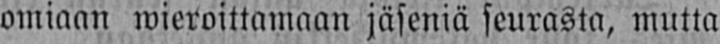omiaan wieroittamaan jäseniä seurasta, mutta
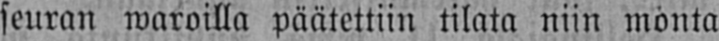seuran waroilla päätettiin tilata niin monta
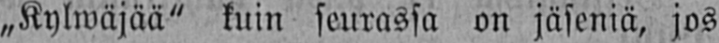„Kylwäjää" kuin seurassa on jäseniä, jos
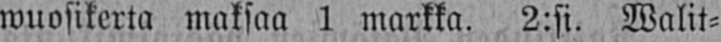wuosikerta maksaa 1 markka. 2:si. Walit-
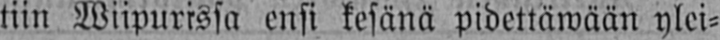tiin Wiipurissa ensi kesänä pidettäwään ylei-
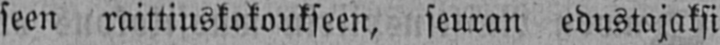seen raittiuskokoukseen, seuran edustajaksi
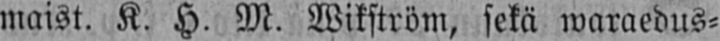maist. K. H. M. Wikström, sekä waraedus-
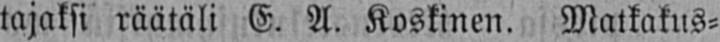tajaksi räätäli E. A. Koskinen. Matkakus-
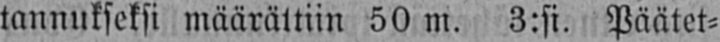tannukseksi määrättiin 50 m. 3:si. Päätet-
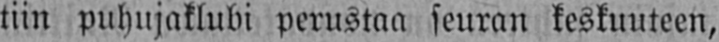tiin puhujaklubi perustaa seuran keskuuteen,
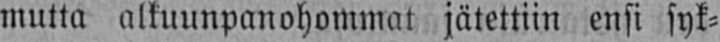mutta alkuunpanohommat jätettiin ensi syk-
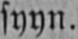syyn.
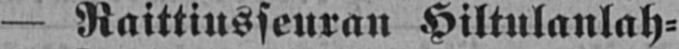— Raittiusseuran Hiltulanlah-
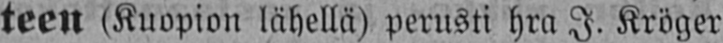teen (Kuopion lähellä) perusti hra I. Kröger
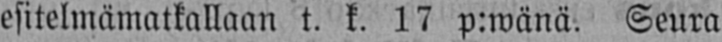esitelmämatkallaan t. k. 17 p:wänä. Seura
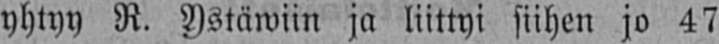yhtyy R. Ystäwiin ja liittyi siihen jo 47
